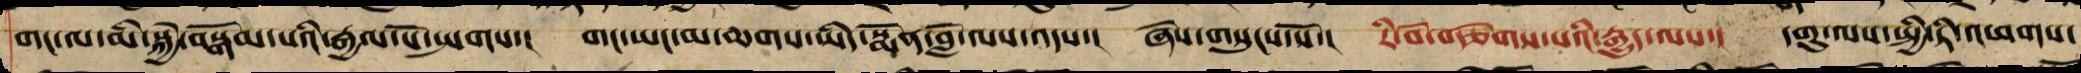གང་ལ་མི་སྐྱེ་བསྒོམ་པའི་རྒྱལ་པོ་སྤགས་། གང་ཡང་མ་ཆགས་ཡིད་སྨོན་བློ་ལས་འདས་། ཞེས་གསུངས་སོ་། རི་བོ་བརྩེགས་པའི་རྒྱུད་ལས་། དགུ་ལས་སྤྱི་ཏི་འཕགས་
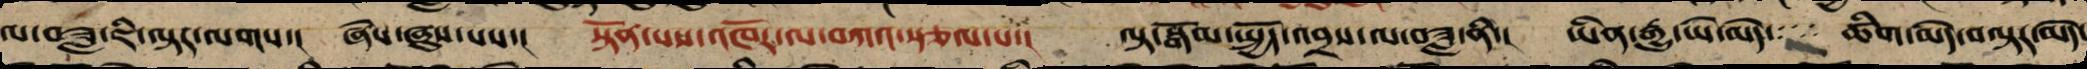ལ་བཟླ་ཇི་ལྟར་ལགས་། ཞེས་ཞུས་པས་། སྟོན་པས་འཁོར་ལ་བཀའ་སྩལ་པ་། ལྟ་སྒོམ་སྤྱོད་འབྲས་ལ་བཟླ་ནི་། ཡིན་རྒྱུ་ཡེ་མེད་ཚིག་མེད་བལྟར་མེད་
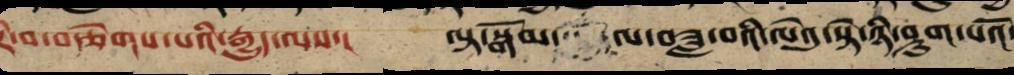རི་བ་བརྩེགས་པའི་རྒྱུད་ལས་།     ལྟ་སྒོམ་   ལ་བཟླ་བའི་ལེའུ་སྟེ་ཉི་ཤུག་པའོ་
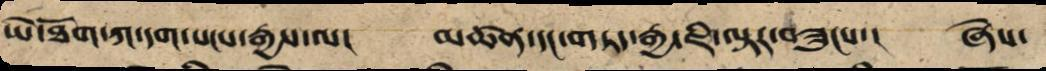ཡེ་ཐོག་ཀ་དག་སངས་རྒྱས་ལ། མཚན་དང་གཏད་རྒྱ་ཇི་ལྟར་བཟུངས་། ཞེས་
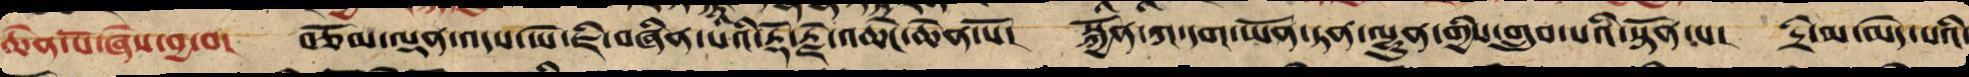ཆེན་པོ་ཞེས་བྱ་བ། བཅོམ་ལྡན་འདས་ཡེ་ཇི་བཞིན་པའི་རྡོ་རྗེ་འཆང་ཆེན་པོ། སྐྱོན་ཀ་དག་ཡོན་ཏན་ལྷུན་གྱིས་གྲུབ་པའི་སྟོན་པ། དྲི་མ་མེད་པའི་
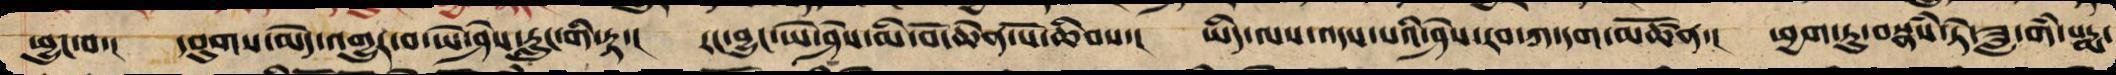ཕྱུང་བ་། དབུགས་མེད་འགྱུར་བ་ཡེ་ཤེས་རླུང་གི་རྟ་། རང་བྱུང་ཡེ་ཤེས་མི་བོ་ཆེན་པོས་ཆིབས་། ཡིད་ལས་འདས་པའི་ཤེས་རབ་ཀ་དག་མཚོན་། ཕྱག་ཏུ་བསྣཾས་ཏེ་ཟླ་གཾ་པདྨ་
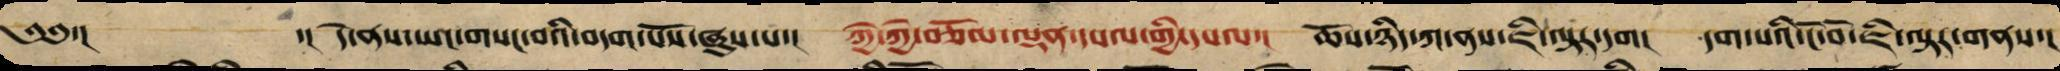༄༅་། ་། དེ་ནས་ཡང་གསང་བའི་བདག་པོས་ཞུས་པ་། ཀྱེ་ཀྱེ་བཅོམ་ལྡན་དཔལ་གྱི་དཔལ་། ཆོས་ཉིད་ཀ་ནས་ཇི་ལྟར་དག། དག་པའི་ངོ་བོ་ཇི་ལྟར་གནས་།
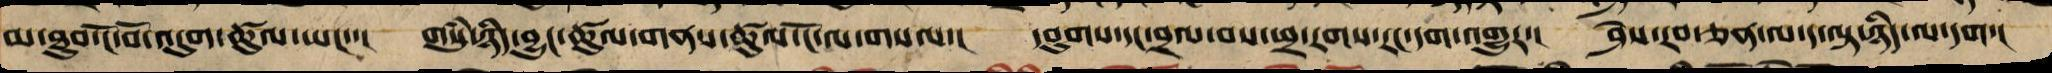མ་ཐུབ་ངོ་བོ་འདུག་ཚུལ་ཡང་་། གསུཾ་ཉིད་བྱུང་ཚུལ་གནས་ཚུལ་ངོ་ལ་གསལ་། དབུགས་དང་བྲལ་བས་ཕྲ་རགས་རང་དག་འགྱུར་། ཤེས་རབ་ཅན་ལ་ད་ལྟ་ཉིད་ལ་དག་།
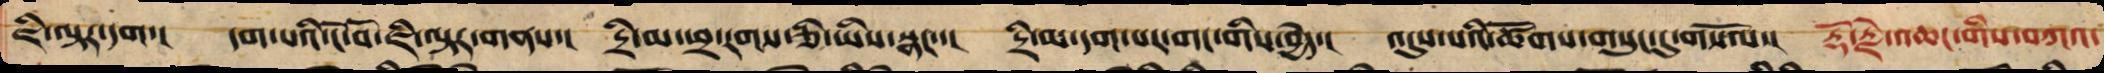ཇི་ལྟར་དག་། དག་པའི་ངོ་བོ་ཇི་ལྟར་གནས་། དྲི་མ་ཕྲ་རགས་ཅི་ཡིས་སྣང་་། དྲི་མ་དག་པར་གང་གིས་བྱེད་། འདུས་པའི་ཚོགས་གསུང་དུ་གསོལ་། རྡོ་རྗེ་འཆང་གིས་བཀའ་
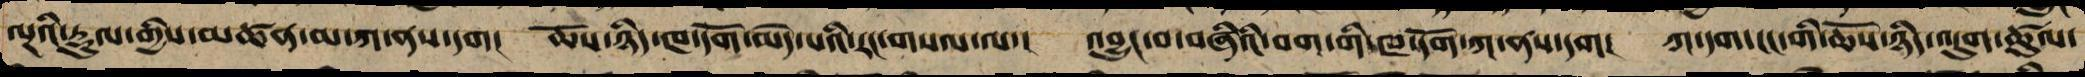ལྔའི་རྡུལ་གྱི་མཚན་མ་ཀ་ནས་དག། ཆོས་ཉིད་ཁ་དོག་མེད་པའི་རང་གསལ་ལ་། འབྱུང་བ་བཞིའི་བག་གི་ཁ་དོག་ཀ་ནས་དག། ཀ་དག་ངང་གི་ཆོས་ཉིད་འདུག་ཚུལ་
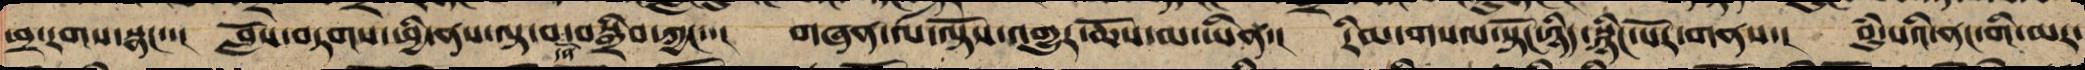ཕྲ་རགས་སྣང་་། བློས་བཏགས་ཕྱི་ནས་བལྟ་བ་བསྒྲིབ་ཀྱང་་། གཞན་ལ་ལྟོས་འགྱུར་ཆོས་མ་ཡིན་། རིམ་གསལ་སྟོང་ཉིད་སྙིང་པོར་གནས་། བུཾ་པའི་ནང་གི་མར་
